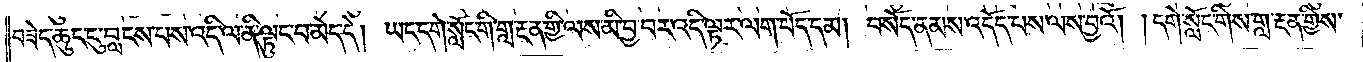བཟེད་ཆུང་ངུ་བླངས་པས་འདི་ལ་ནི་ལྟུང་བ་མེད་དེ། ཡང་དགེ་སློང་གི་གླ་རྔན་གྱི་ལས་མི་བྱ་བར་འདི་ལྟར་ལག་པོད་དམ། བསོད་ནམས་འདོད་པས་ལས་བྱའོ། །དགེ་སློང་གིས་གླ་རྔན་གྱིས་
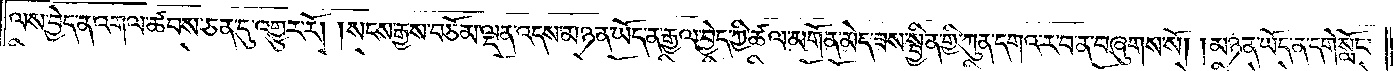ལས་བྱེད་ན་འགལ་ཚབས་ཅན་དུ་འགྱུར་རོ། །སངས་རྒྱས་བཅོམ་ལྡན་འདས་མཉན་ཡོད་ན་རྒྱལ་བྱེད་ཀྱི་ཚལ་མགོན་མེད་ཟས་སྦྱིན་གྱི་ཀུན་དགའ་ར་བ་ན་བཞུགས་སོ། །མཉན་ཡོད་ན་དགེ་སློང་
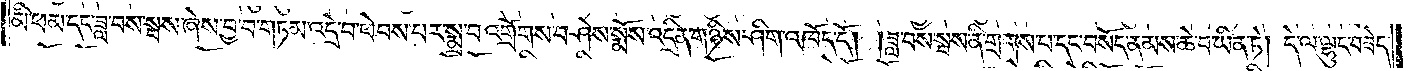མི་ཕམ་དང་ཟླ་བས་སྦས་ཞེས་བྱ་བ་གཏམ་འདྲེ་བ་ཕེབས་པར་སྨྲ་བ་འགྲོགས་བཤེས་སྨོས་འདྲིན་གཉིས་ཤིག་འཁོད་དོ། །ཟླ་བས་སྦས་ནི་གྲགས་པ་དང་བསོད་ནམས་ཆེ་བ་ཡིན་ཏེ། དེ་ལ་ལྷུང་བཟེད་
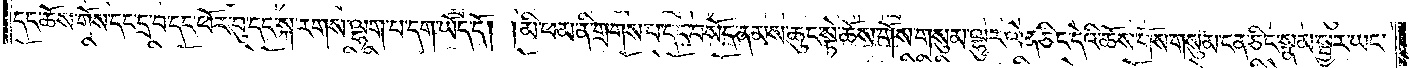དང་ཆོས་གོས་དང་དྲ་བ་དང་ཕོར་བུ་དང་སྐ་རགས་ལྷག་པ་དག་ཡོད་དོ། །མི་ཕམ་ནི་གྲགས་པ་དང་བསོད་ནམས་ཆུང་སྟེ་ཆོས་གོས་གསུམ་ལྷུར་ལེན་ཅིང་དེའི་ཆོས་གོས་གསུམ་ངན་ཅིང་སྣམ་སྦྱར་ཡང་
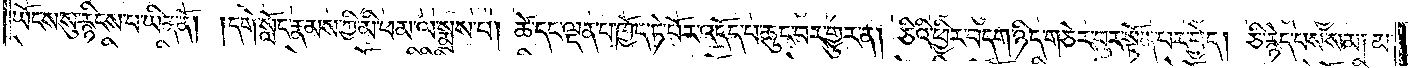ཡོངས་སུ་རྙིངས་པ་ཡིན་ནོ། །དགེ་སློང་རྣམས་ཀྱི་མི་ཕམ་ལ་སྨྲས་པ། ཚེ་དང་ལྡན་པ་ཁྱོད་ཏེ་པོར་འདོད་པ་ཆུང་བར་གྱུར་ན། ཅིའི་ཕྱིར་བདག་ཉིད་གཅེར་བུར་སྟོན་པར་བྱེད། ཅི་རྙེད་པས་སམ། མ་
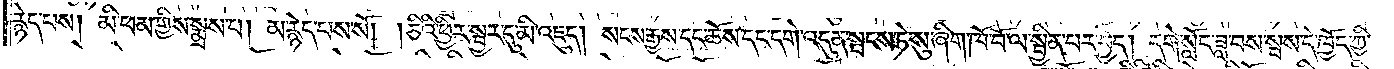རྙེད་པས། མི་ཕམ་གྱིས་སྨྲས་པ། མ་རྙེད་པས་སོ། །ཅིའི་ཕྱིར་སྦྱར་དུ་མི་འཇུད། སངས་རྒྱས་དང་ཆོས་དང་དགེ་འདུན་སྤངས་ཏེ་སུ་ཞིག་ཁོ་བོ་ལ་སྦྱིན་པར་བྱེད། དགེ་སློང་ཟླ་བས་སྦས་དེ་ཁྱོད་ཀྱི་
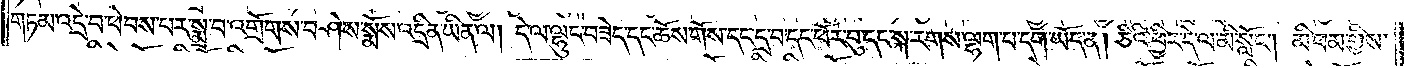གཏམ་འདྲེ་བ་ཕེབས་པར་སྨྲ་བ་འགྲོགས་བཤེས་སྨོས་འདྲིན་ཡིན་ལ། དེ་ལ་ལྷུང་བཟེད་དང་ཆོས་གོས་དང་དྲ་བ་དང་ཕོར་བུར་དང་སྐ་རགས་ལྷག་པ་དག་ཡོད་ན། ཅིའི་ཕྱིར་དེ་ལ་མི་སློང༌། མི་ཕམ་གྱིས་
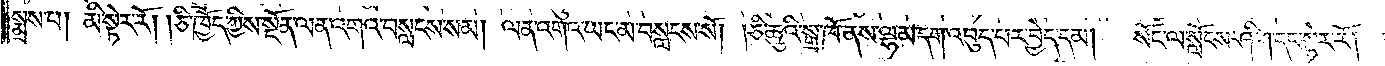སྨྲས་པ། མི་སྟེར་རོ། །ཅི་ཁྱོད་ཀྱིས་སྔོན་ལན་འགའ་བསླངས་སམ། ལན་འགའ་ཡང་མ་བསླངས་སོ། །ཅི་ཆུའི་སྒྲ་ཁོ་ནས་ལྷམ་དག་འབུད་པར་བྱེད་དམ།  སོང་ལ་སློངས་ཤིག་དང་སྟེར་རོ། །
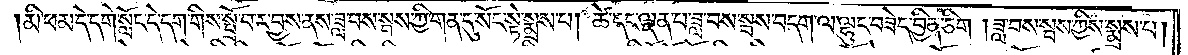མི་ཕམ་དེ་དགེ་སློང་དེ་དག་གིས་སྤྲོ་བར་བྱས་ནས་ཟླ་བས་སྦས་ཀྱི་གན་དུ་སོང་སྟེ་སྨྲས་པ། ཚེ་དང་ལྡན་པ་ཟླ་བས་སྦས་བདག་ལ་ལྷུང་བཟེད་བྱིན་ཅིག །ཟླ་བས་སྦས་ཀྱིས་སྨྲས་པ།
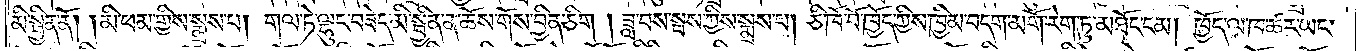མི་སྦྱིན་ནོ། །མི་ཕམ་གྱིས་སྨྲས་པ། གལ་ཏེ་ལྷུང་བཟེད་མི་སྦྱིན་ན་ཆོས་གོས་བྱིན་ཅིག །ཟླ་བས་སྦས་ཀྱིས་སྨྲས་པ། ཅི་ཁོ་བོ་ཁྱོད་ཀྱིས་ཁྱིམ་བདག་མགོ་རེག་ཏུ་མཐོང་ངམ། ཁྱོད་ལ་ཁ་ཚར་ཡང་
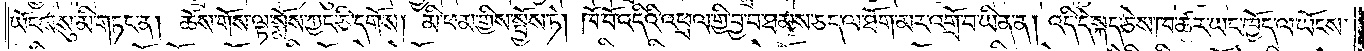ཡོངས་སུ་མི་གཏང་ན། ཆོས་གོས་ལྟ་སྨོས་ཀྱང་ཅི་དགོས། མི་ཕམ་གྱིས་སྤྱོས་ཏེ། ཁོ་བོ་འདིའི་འཕྲལ་གྱི་བྱ་བ་ཐམས་ཅད་ལ་ཐོག་མར་འགྲོ་བ་ཡིན་ན། འདི་དེ་སྐད་ཅེས་ཁ་ཚར་ཡང་ཁྱོད་ལ་ཡོངས་
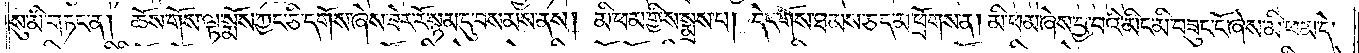སུ་མི་གཏང་ན། ཆོས་གོས་ལྟ་སྨོས་ཀྱང་ཅི་དགོས་ཞེས་ཟེར་རོ་སྙམ་དུ་བསམས་ནས། མི་ཕམ་གྱིས་སྨྲས་པ། དེང་གོས་ཐམས་ཅད་མ་ཕྲོགས་ན། མི་ཕམ་ཞེས་བྱ་བའི་མིང་མི་བཟུང་ངོ་ཞེས་མི་ཕམ་དེ་
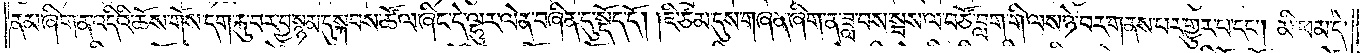ནམ་ཞིག་ན་འདིའི་ཆོས་གོས་དག་རྐུ་བར་བྱ་སྙམ་དུ་སྐབས་ཚོལ་ཞིང་དེ་ལྷུར་ལེན་བཞིན་དུ་སྡོད་དོ། །ཇི་ཙམ་དུས་གཞན་ཞིག་ན་ཟླ་བས་སྦས་ལ་བཙོ་བླག་གི་ལས་ཉེ་བར་གནས་པར་གྱུར་པ་དང༌། མི་ཕམ་དེ་
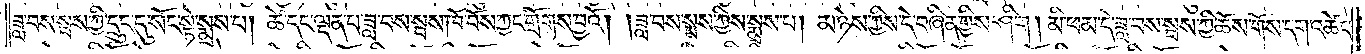ཟླ་བས་སྦས་ཀྱི་དྲུང་དུ་སོང་སྟེ་སྨྲས་པ། ཚེ་དང་ལྡན་པ་ཟླ་བས་སྦས་ཁོ་བོས་ཀྱང་གྲོགས་བྱའོ། །ཟླ་བས་སྦས་ཀྱིས་སྨྲས་པ། མ་ཉེས་ཀྱིས་དེ་བཞིན་གྱིས་ཤིག། མི་ཕམ་དེ་ཟླ་བས་སྦས་ཀྱི་ཆོས་གོས་དག་འཚེང་
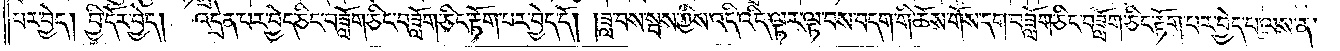པར་བྱེད། བྱི་དོར་བྱེད།  དྲེན་པར་བྱེད་ཅིང་བཟློག་ཅིང་བཟློག་ཅིང་རྟོག་པར་བྱེད་དོ། །ཟླ་བས་སྦས་ཀྱིས་འདི་འདི་ལྟར་ལྟ་བས་བདག་གི་ཆོས་གོས་དག་བཟློག་ཅིང་བཟློག་ཅིང་རྟོག་པར་བྱེད་པ་ལས་ན་
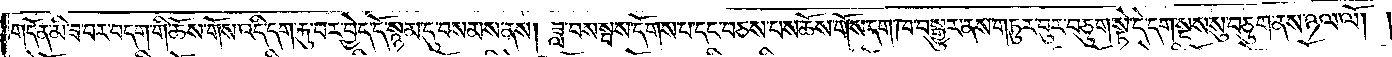གདོན་མི་ཟ་བར་བདག་གི་ཆོས་གོས་འདི་དག་རྐུ་བར་བྱེད་དོ་སྙམ་དུ་བསམས་ནས། ཟླ་བས་སྦས་དོགས་པ་དང་བཅས་པས་ཆོས་གོས་དག་ཁ་བསྒྱུར་ནས་གཏུར་བུར་བཅུག་སྟེ་དེ་དག་སྔས་སུ་བཅུག་ནས་ཉལ་ལོ། །
